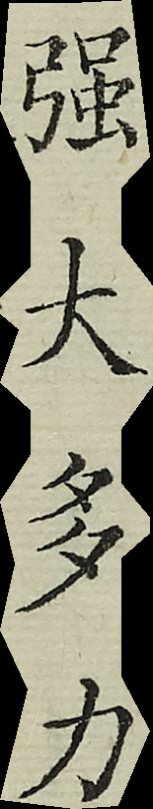強大多力
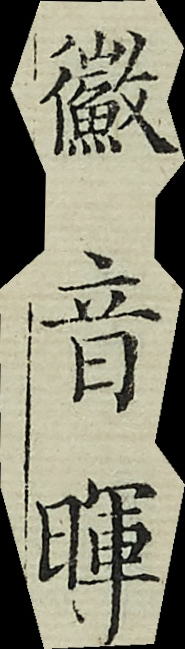鰴音暉
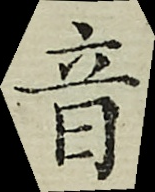音
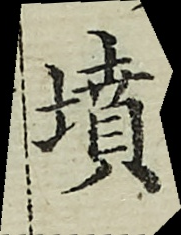墳
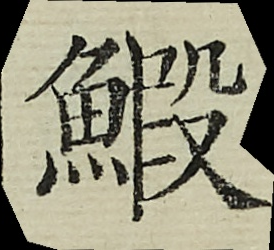鰕
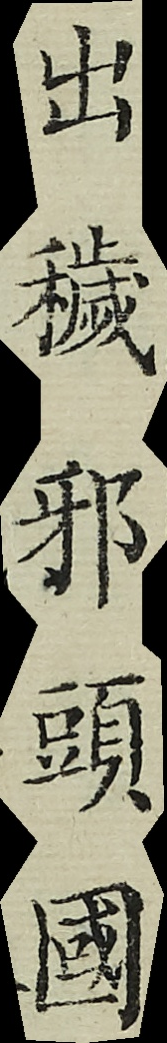出穢邪頭國
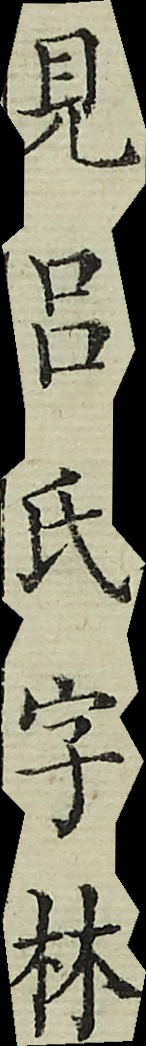見呂氏字林
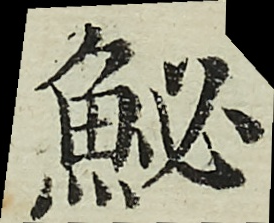鮅
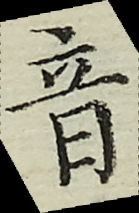音
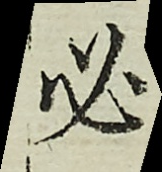必
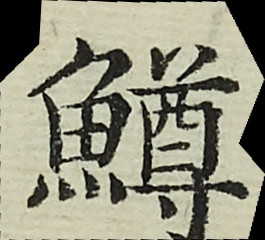鱒
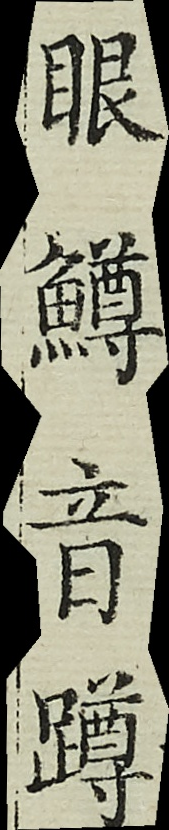眼鱒音蹲
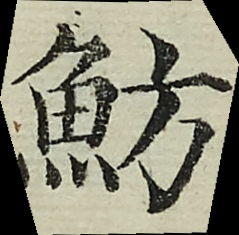魴
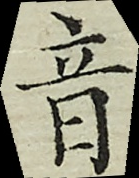音
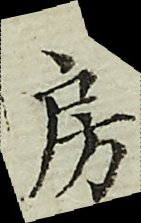房
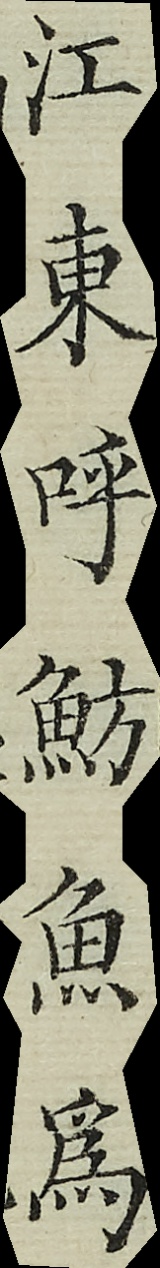江東呼魴魚為
